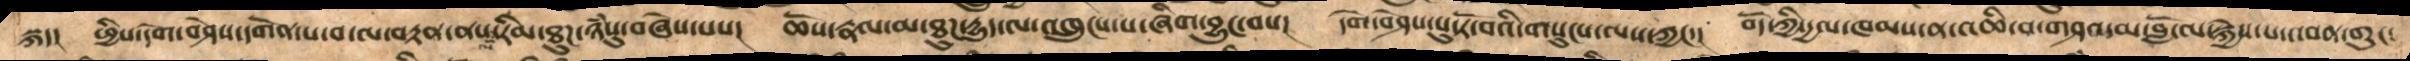སྐད།   ཕྱིས་དགེ་བཤེས་དགོན་པ་བ་ལ་བསྟན་ནས་རིམ་ཐུཌ་ཉཾསུ་བཞེས་པས།   ཆོས་རྣལ་མ་ཐུཌ་དྱུད་ལ་འཁྲུངས་པ་ཞིག་བྱུང་བས།   དགེ་བཤེས་པུ་ཏོ་བའི་གསུངས་ལས་ཀྱང་།  བོད་ཀྱི་དྱལ་ཁམས་ན་འཆི་བ་གཤའ་མ་བློ་ལ་སྐྱེས་པ་འབན་གུང་
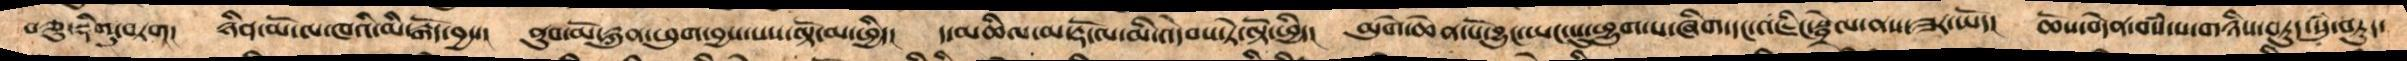བཅུ་སྡིགུ་བཏག།   ཉིན་མོ་ལ་ཁའི་མི་རྒོད་བྱས།   ནུབ་མོ་རྐུན་ཕུག་བྱས་པས་ལྟོ་མ་ཕྱིད།   ད་མཆིལ་མ་རྡོ་ལ་མི་འདེབས་ཏེ་ལྟོ་ཕྱིད།   མུགེ་ཆེན་པོ་བྱུང་ཡང་སུ་ཕྱུག་པ་ཞིག་དང་འཇིང་སྦྲེལ་ནས་ཟར་ཡོད།    ཆོས་བདེན་བསཾ་པ་གཉིས་བདྱུད་སུཾ་བདྱུད་
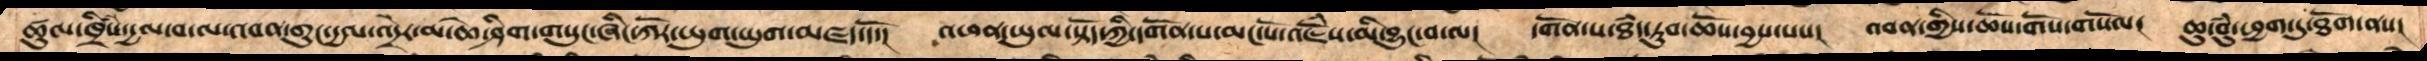ཚུལ་ཁྲིཾས་དྱལ་བ་ལ་འབན་གུང་དྱལ་འདྲེར་མ་ཆེ་ཤིག་གསུང་ཞིང་ཀོར་ཡུག་ཡུག་མཛད་དོ་།   འཕན་ཡུལ་སྟོད་ཀྱི་དགོན་པ་མང་པོ་འཇོཾས་མི་བྱུང་བ་ལ།  དགོན་པ་ཐཾད་རུབ་ཆོས་བྱས་པས།  འབན་གྱིས་ཆོས་གོས་གསོལ།   ཆུ་བུཾ་ཕྱག་དུ་ཐོག་ནས།
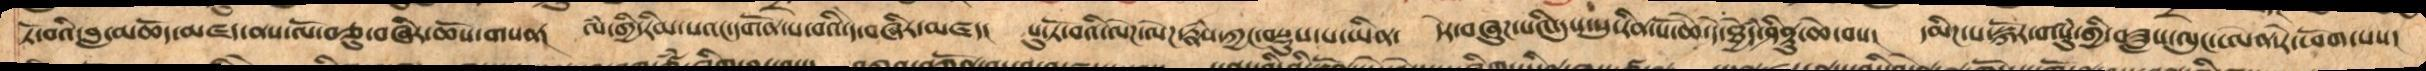ཏོ་བའི་བླ་མཆོད་མཛད་ནས་ལོ་བཅུ་བཞིར་ཆོས་གསན།  ལཾ་གྱི་རིམ་པའང་དགོན་པ་བའི་དེ་བཞིར་མཛད།   པུ་ཏོ་བའི་ལེཌ་ལེཌ་རྣཾས་ཀྱང་བསྡུས་པ་ཡིན།  དེར་བཞུཌ་པའི་དུས་སུ་རིན་པོ་ཆེ་དེ་ཐྱེདཾ་ཤིནྟུ་ཆེ་བས།   དམིཌ་པ་སྐོར་གསུཾ་གྱི་བཟླས་ལུང་ཨན་རེ་ཕོག་པས།
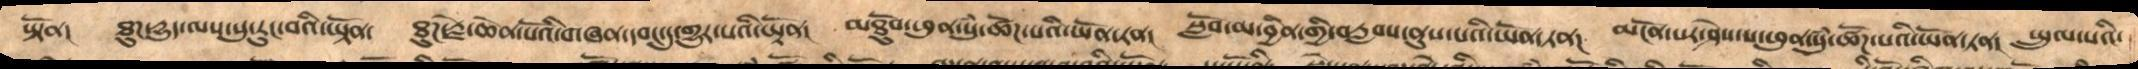ཡྟོན།  ཐུཌ་དྱུད་ལས་སུ་རུང་བའི་ཡྟོན།   ཐུཌ་རྗེ་ཆེན་པོའི་གཞན་དབང་དུ་གྱུར་པའི་ཡྟོན།   མཐོུབ་ཕུན་སུཾ་ཚོཌ་པའི་ཡོན་ཏན།    སློབ་མ་བྱིན་གྱི་བརླབས་ནུས་པའི་ཡོན་ཏན།   མངོན་པར་ཤེས་པ་ཕུན་སུཾ་ཚོཌ་པའི་ཡོན་ཏན།   སྤྲུལ་པའི་
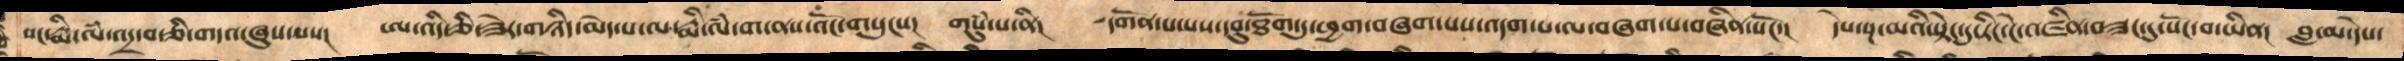སང་རྨི་ལཾ་འདྲ་བ་ཅི་གདའ་ཞུས་པས།   ཨ་འདི་ཅི་ཟེར་གཉིད་མེད་པ་ལ་རྨི་ལཾ་ག་ནས་འོང་གསུངས།   གསུཾ་པ་ནི།   དགོན་པ་པས་དབུ་ཐོག་དུ་ཕྱག་བཞག་པས་འདག་པ་ལ་བཞག་པ་བཞིན་སོང་།   དེས་སྔ་མའི་སྟེང་དུ་ཏིང་ངེ་འཛིན་བཟང་དུ་སོང་བ་ཡིན།  བླ་མ་དེས་
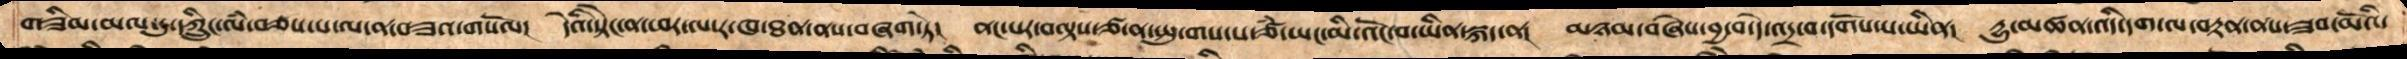གཟིམ་མལ་དུ་ཀྲིུང་ལཾ་བཙས་པ་ལ་ན་བཟའ་གསོལ།  དེའི་སྟེང་ན་ཕར་ལ་ར་ཁ་ཐན་ནས་བཞག་ཏེ།  ནང་པར་བལྟས་ཙ་ན་སྤུ་གས་པ་ཙཾ་ཡང་མི་འོང་བ་ཡིན་སྐད་ན།   མཉམ་བཞེས་བྱ་བ་དེ་འདྲ་བ་དགོས་པ་ཡིན།  དྱུ་མཚན་འདི་དག་ལ་བརྟན་ནས་ཟབ་མོའི་
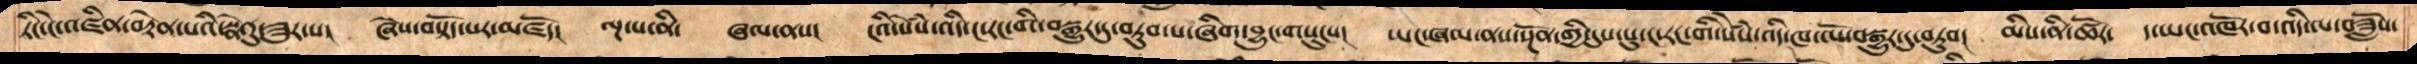ཏིང་ངེ་འཛིན་བརྟེན་པའི་སྣེའུ་ཟུར་པ།  ཞེས་བསྟོད་པར་མཛདོ།   ལྔ་པ་ནི།   ཞལ་ནས།   ངའི་སེཾས་འདི་ང་རང་གི་བསྒྱུར་དུ་བཏུབ་པ་ཞིག་བྱུང་གསུངས།   ཡང་ཞལ་ནས་སྔོན་གྱི་དུས་སུ་ང་རང་གི་སེཾས་འདི་ཁ་ལོ་བསྒྱུར་དུ་བཏུབ།   མིས་ནི་ཚོར།   ད་ཡང་འཁོར་བ་འདི་ལ་བཟླསོ་
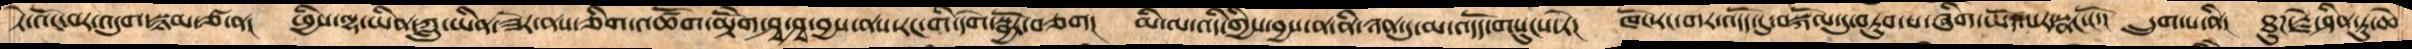ཏེ་འོང་བར་འདུག་སྙམ་ཙ་ན།   ཕྱིས་ལྷ་ཡིན་ཀླུ་ཡིན་ཟེར་ནས་ཅིག་འཚོག་མྟེགོ་ཤྭ་ཤྭ་བྱས་ནས་རང་གི་དགེ་སྦྱོར་བཅག།   མི་ལ་འདི་གྱིས་བྱས་ན་ནི་ཉན་དུ་མ་འདོད་གསུངས་ཏེ།  ཁོང་རང་གར་འདོད་དུ་བསྐོལ་དུ་བཏུབ་པ་ཞིག་ཡོད་པར་སྣང་ངོ་།  དྲུག་པ་ནི།  ཐུཌ་རྗེ་ཤིན་ཏུ་ཆེ
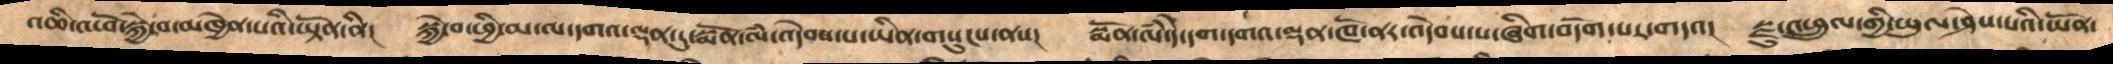འཆི་འཕོ་སྐྱེ་བ་མཁྱེན་པའི་ཡྟོན་ནི།   སྐྱེ་བ་ཕྱི་མ་ལ་དགའ་ལྡན་དུ་སྨོན་ལཾ་འདེབས་པ་ཡིན་གསུངས་ནས།   སྨོན་ལཾ་དེ་དག་དགའ་ལྡན་ཁོ་ནར་འདེབས་པ་ཞིག་བདོག་པར་གདའ།   སྫུ་འཕྲུལ་གྱི་ཡུལ་ཤེས་པའི་ཡོན་
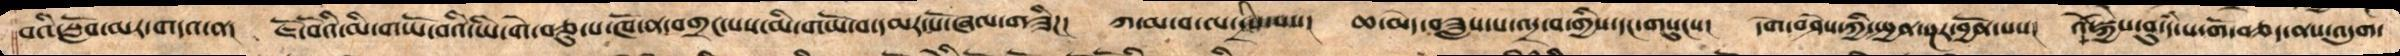བའི་སློབ་མར་གདའ་ན།  ཇོ་བོའི་མི་གཡོ་བའི་ཡི་གེ་བཅུ་པ་ཁོ་ན་བགྲང་པས་མི་གཡོ་བ་དམར་པོ་ཞལ་གཟིཌ།  ཀ་མ་བ་ལ་དྲིས་པས།  ཆ་མེད་བཟླས་པ་འདྲ་བ་གྱིས་དང་གསུངས།  དགེ་བཤེས་ཀྱི་སྤྱན་སྔར་བྱོན་པས།   འོ་སྐྱེས་བུ་དཾ་པ་གོ་བཅད་ནས་འདུག་
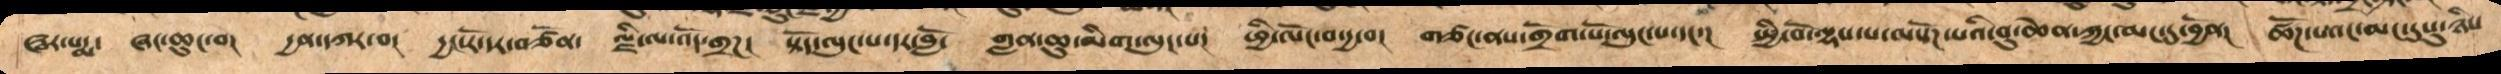ཝར་པདྨ་  ཞང་ཆུང་བ།   དྱན་དཀར་བ།   དྱང་རོ་དར་བཙོན།   ལྗི་ལ་འོད་གྲཌ།  སྟོད་ལུང་པ་དར་བློ་   གླན་ཆུ་མིག་ལུང་པ།   ཕྱི་ལོང་བ་དྱ་བ།   གཙང་ནས་གྲེག་པོ་ལུང་པ་དང་།   སྤྱི་བོ་ལྷས་པ་ལསོཌ་པའི་བུ་ཆེན་ཀྱང་མང་དུ་བྱོན།   ཚོཌ་པའང་མང་དུསུ་ཉིས་
